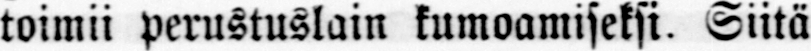toimii perustuslain kumoamiseksi. Siitä
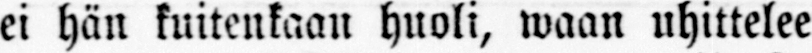ei hän kuitenkaan huoli, waan uhittelee
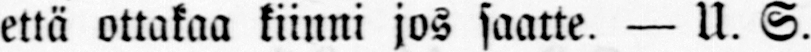että ottakaa kiinni jos saatte. — U. S.
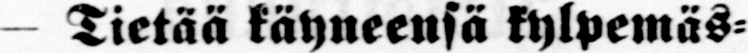— Tietää käyneensä kylpemäs-
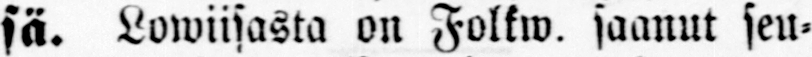sä. Lowiisasta on Folkw. saanut seu-
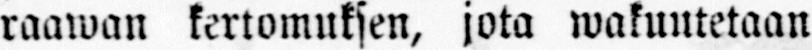raawan kertomuksen, jota wakuutetaan
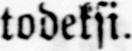todeksi.
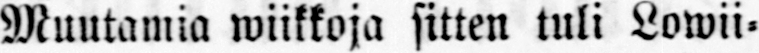Muutamia wiikkoja sitten tuli Lowii-
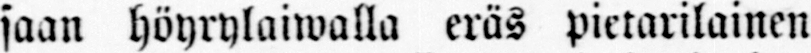saan höyrylaiwalla eräs pietarilainen
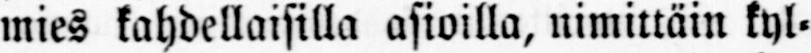mies kahdellaisilla asioilla, nimittäin kyl-
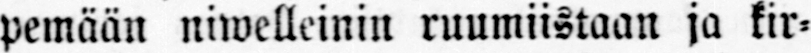pemään niwelleinin ruumiistaan ja kir-
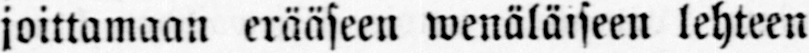joittamaan erääseen wenäläiseen lehteen
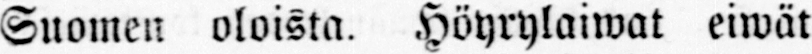Suonten oloista. Höyrylaiwat eiwät
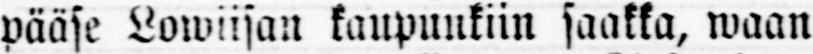pääse Lowiisan kaupunkiin saakka, waan
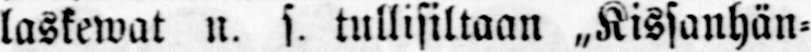laskewat n. s. tullisiltaan ˶Kissanhän-
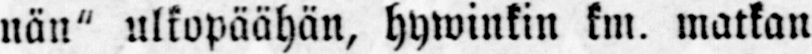nän" ulkopäähän, hywinkin km. matkan
